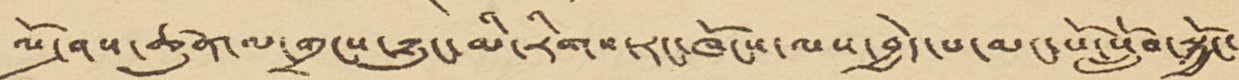ལོ་ཤས་ཚུན་ལ་གྲངས་ཉུང་མི་རིགས་རང་ཁོངས་ལས་བྱེད་པ་མང་པོ་སློབ་སྐྱོང་
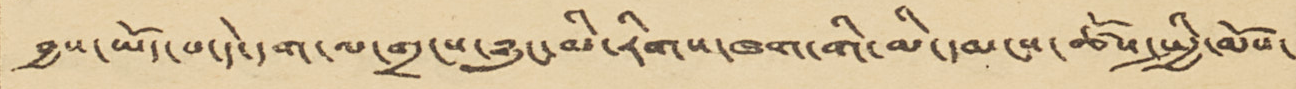བྱས་ཡོད་པ་དེ་དག་ལ་གྲངས་ཉུང་མི་རིགས་ཁག་གི་མི་དམངས་ཚོས་སྤྱི་མོས་
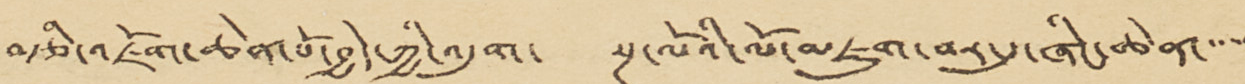བརྩི་འཇོག་ཆེན་པོ་བྱེད་ཀྱི་འདུག་ སྔ་ལོའི་ལོ་མཇུག་བར་དུ་ཞིང་ཆེན་་་་་
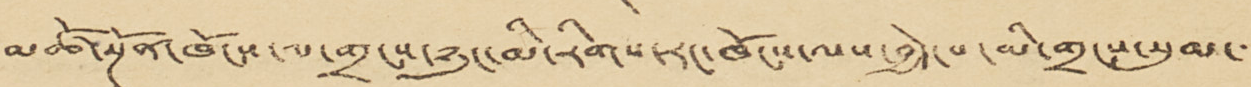མཚོ་སྔོན་ཁོངས་ལ་གྲངས་ཉུང་མི་རིགས་རང་ཁོངས་ལས་བྱེད་པ་མི་གྲངས་སུམ་་་
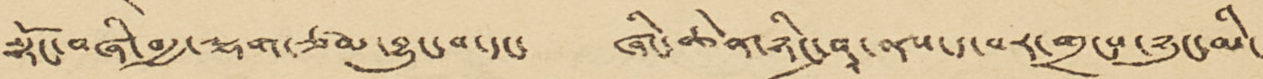སྟོང་བཞི་བརྒྱ་ལྷག་ཙམ་བྱུང་བ་དང་ ཞིང་ཆེན་ཉིང་ཤཱ་ནས་ད་བར་གྲངས་ཉུང་མི་
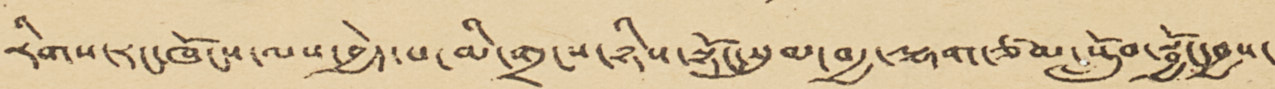རིགས་རང་ཁོངས་ལས་བྱེད་པ་མི་གྲངས་ཉིས་སྟོང་སུམ་བརྒྱ་ལྷག་ཙམ་སློབ་སྦྱོང་བྱས་
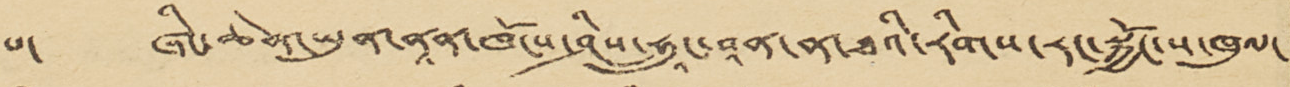པ་ ཞིང་ཆེན་ཡུན་ནཱན་ཁོངས་ཤིས་ཧྲཱུང་བཱན་ན་ཐའི་རིགས་རང་སྐྱོང་ས་ཁུལ་
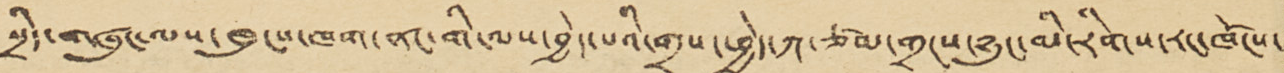སྲིད་གཞུང་ལས་ཁུངས་ཁག་ནང་གི་ལས་བྱེད་གྲས་ཕྱེད་ཀ་ཙམ་གྲངས་ཉུང་མི་རིགས་རང་ཁོངས་
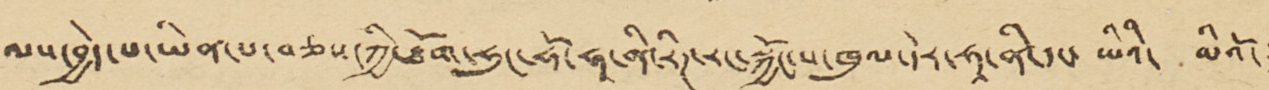ལས་བྱེད་པ་ཡིན་པ་བཅས་ཀྱི་ཐོག་ཧུང་ཧོ་ཧཱ་ནི་རིཊ་རང་སྐྱོང་ས་ཁུལ་དེར་ཧཱ་ནི་དང་ ཡིའི་ མིའི་
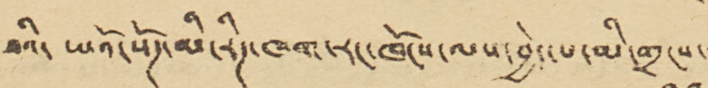ཐའི་ ཡའོ་སོཊ་མི་རིཊ་ཁག་རང་ཁོངས་ལས་བྱེད་མི་གྲངས་
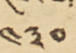༤༣༠
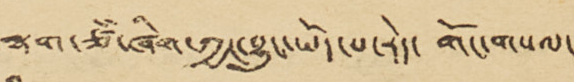ལྷག་ཙཾ་ཞིག་ཀྱང་བྱུང་ཡོད་པ་རེད་ གོང་གསལ་
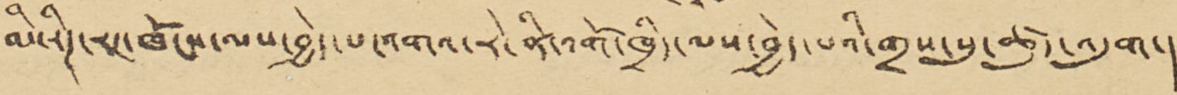མི་རིཊ་རང་ཁོངས་ལས་བྱེད་པ་འགའ་རེ་ནི་འགོ་ཁྲིད་ལས་བྱེད་པའི་གྲས་སུ་ཚུད་འདུག་།
